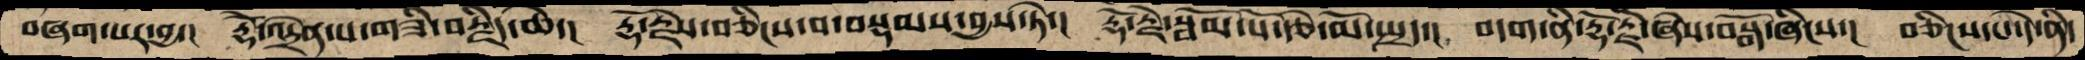བཞག་པར་བྱ་།  རྡོེ་འདྲེན་པ་གཟི་བརྗིད་ཆེ་།  རྡོ་རྗེས་བཅིངས་བ་བསྡམས་བྱས་ཏེ་།  རྡོ་རྗེ་སྦོམ་པོ་རྩེ་མོ་སྤྲད་།  བདག་ནི་རྡོ་རྗེ་ཞེས་བསྒོ་ཞིངས་།  བཅིངས་པ་དེ་ནི་
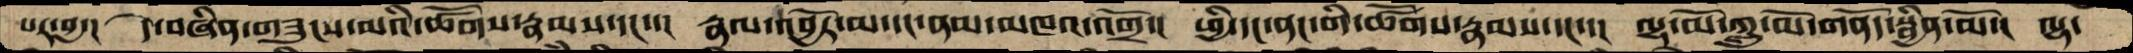པར་བྱ་།  དེ་བཞིན་གཟུངས་མའི་ཚོགས་རྣམས་དང་་།  རྣལ་འབྱོར་མ་དང་ནམ་མཁའ་འགྲོ་།  ཕྱི་དང་ནང་གི་ཚོགས་རྣམས་དང་་།  ལྷ་མོ་ཀླུ་མོ་གནོད་སྦྱིན་མོ་།  ལྷ་
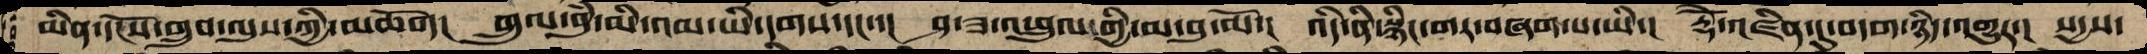ཡིན་དངོས་གྲུབ་ལུས་ཀྱི་མཆོག། གྲུལ་བུཾ་མི་འམ་ཡི་དགས་དང་་། ཤ་ཟ་འཕྲུལ་གྱི་མ་བུ་མོ་། འདི་ནི་སྙིང་གར་བཞག་པ་ཡི་། རྡོེ་འཛིན་དུ་བདག་ཉིད་འགྱུར་། སདྱས་
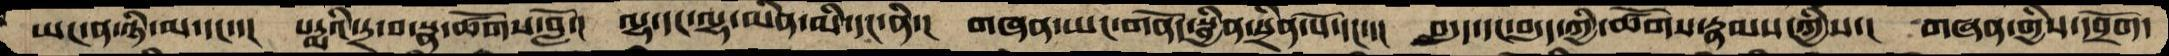ཡང་ན་ཉི་མ་དང་་།  པདྨའི་དྲ་བ་སྣ་ཚོགས་བློ་།  ལྷ་དང་ལྷ་མིན་མི་དང་ནི་།  གཞན་ཡང་གནོད་སྦྱིན་སྲིན་པོ་དང་་།  བདུད་དང་བདུད་ཀྱི་ཚོགས་རྣམས་ཀྱིས་།  གཞན་གྱིས་དབྲོག་
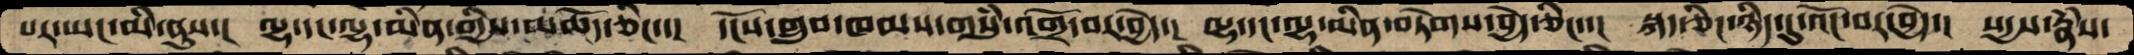པར་ཡང་མི་ནུས་།  ལྷ་དང་ལྷ་མིན་གྱིས་མཆོད་ཅིང་་།  དངོས་གྲུབ་ཁམས་གསུཾ་འགྲོ་བར་བྱེད་།  ལྷ་དང་ལྷ་མིན་བཏེགས་བྱེད་ཅིང་་།  སྐད་ཅིག་ཉིད་དུ་འོང་བར་བྱེད་།  སདྱས་རྣཾས་
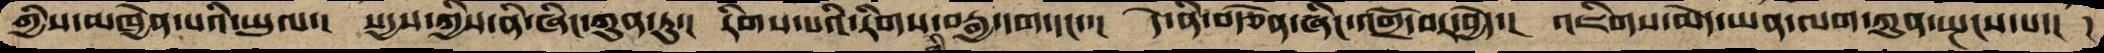གྱིས་མཁྱེན་པའི་ཡུལ་། སདྱས་ཀྱིས་ནི་ཞིང་ཀུན་ཏུ་། རིགས་པའི་རིགས་ཀྱི་བརྒྱ་དག་དང་་། དེ་ནི་བརྩོན་ཞིང་འགྲོ་བར་བྱེད་། འཇིགས་མེད་ཡན་ལག་ཀུན་སྤངས་པ་། ད
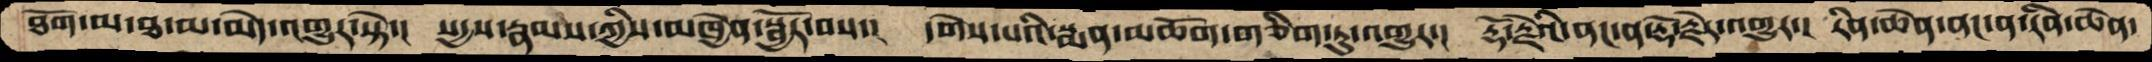ཐོག་མ་ཐ་མ་མེད་འགྱུར་སྟེ་།  སདྱས་རྣམས་ཀྱིས་མཁྱེན་སྦྱོར་བས་།  དགོས་པའི་སྨན་མཆོག་གཅིག་ཏུ་འགྱུར་།  རྡོ་རྗེའི་ནང་ན་རྡོ་རྗེར་འགྱུར་།  རིན་ཆེན་ནང་ན་རིན་ཆེན་
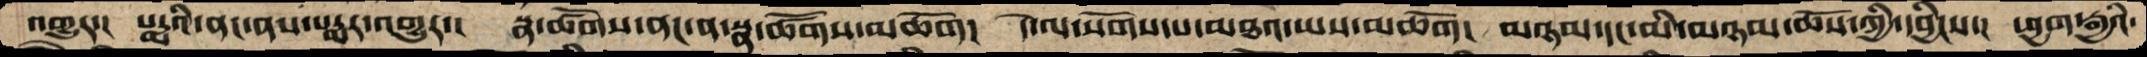འགྱུར་།  པདྨའི་ནང་ནས་པདྨར་འགྱུར་།  སྣ་ཚོགས་ནང་ན་སྣ་ཚོགས་མཆོག།  དེ་ལ་སོགས་པ་མཐའ་ཡས་མཆོག།  མཉམ་དང་མི་མཉམ་ཆོས་ཀྱི་དབྱིངས་།  ཕྱག་རྒྱའི་
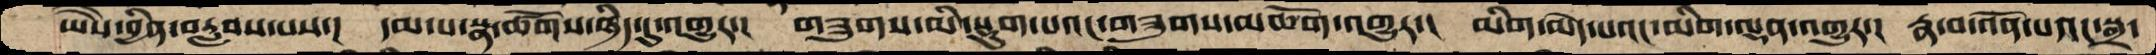ཡཻས་བྱིན་བརླབས་པས་།  དམ་པ་སྣ་ཚོགས་ཉིད་དུ་འགྱུར་།  གཟུགས་མི་སྡུག་པའང་གཟུགས་མཆོག་འགྱུར་།  མིག་མེད་པའང་མིག་ལྡན་འགྱུར་།  རྣ་བ་འོན་པའང་སྒྲ་
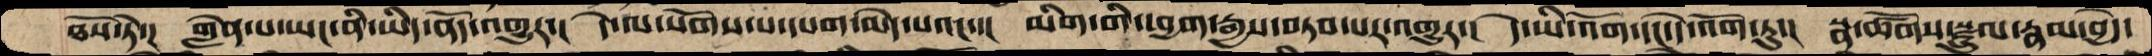ཐོས་ཏེ་།  གླེན་པ་ཡང་ནི་ཡིད་ནོད་འགྱུར་།  དེ་ལ་སོགས་པ་དཔག་མེད་པའང་།  མིག་གི་ཕྱག་རྒྱས་བཏབ་པར་འགྱུར་།  དེ་ཡི་འོག་དང་དེ་འོག་ཏུ་།  སྣ་ཚོགས་སྫྲུལ་རྣམ་བྱེད་
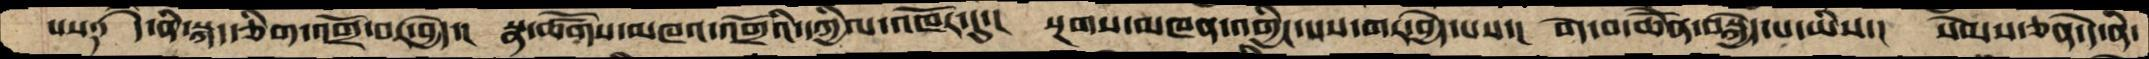པས༑  དེ་ནི་སྐད་ཅིག་འགྲོ་བར་བྱེད་། སྣ་ཚོགས་མཁའ་འགྲོའི་དཀྱིལ་འཁོར་དུ་།  སྔགས་མཁན་འགྱིང་པས་གར་བྱེད་པས་།  བདེ་བ་ཆེནོ་བསྐྱེད་པ་ཡིས་།  སེམས་ཅན་དེ་ནི་
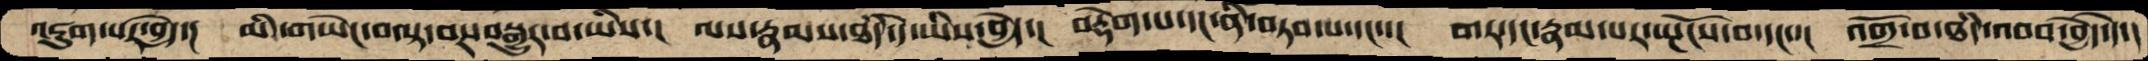འཇུག་པར་བྱེད་། མི་གཡེང་བལྟ་བར་བསྒྱུར་བ་ཡིས་། ལས་རྣམས་ཐདཾ་དེ་ཡིས་བྱེད་། བརྡེག་པ་དང་ནི་བཏབ་པ་དང་་། གར་དང་རྣམ་པར་སྤོངས་བ་དང་་། འགྲོ་བ་ཐདཾ་འབབ་བྱེད་དེ་།
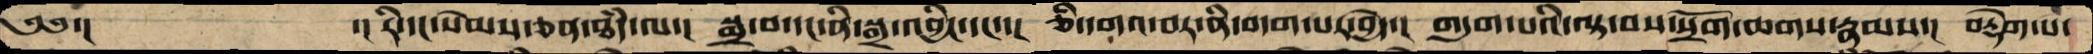༄༅་།        ་།རི་དང་སེམས་ཅན་ཐཾད་ལ་།  སྨྲ་བ་དང་ནི་སྒྲ་འབྱིང་དང་་།  ཅི་དགའ་བར་ནི་བདག་པར་བྱེད་།  གདུག་པའི་ལྟ་བས་སྲོག་ཆགས་རྣམས་།  བརྡེག་པ་
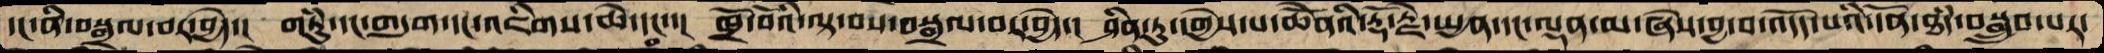དང་ནི་བསྒྲལ་བར་བྱེད་།  གཏུཾ་དང་གདུག་དང་འཇིགས་ཆེ་དང་།  ཁྲོ་བོའི་ལྟ་བས་བསྒྲལ་བར་བྱེད་།  ཤིན་ཏུ་དགྱེད་པ་ཆེནོའི་རྡོ་རྗེ་སྤྱན་དང་ལྡན་མ་ཞེས་བྱ་བ་འདོད་པའི་དོན་ཐདཾ་བསྒྲུབ་པར་
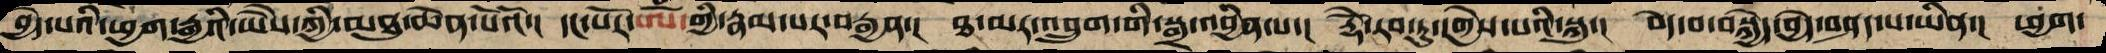བྱེད་པའི་ཕྱག་རྒྱའི་ཡཻས་ཀྱི་མཐུ་ཆེན་པོའོ་།  དང་པོར་ཨོཾ་གྱི་རྣམ་པར་བརྒྱན་།  ཐ་མར་འབྲུག་གི་སྒྲ་འབྱིན་པ་།  རྡོེ་རབ་ཏུ་དགྱེས་པའི་སྐུ་།  བདེ་བ་བསྐྱེད་བྱེད་བཤད་པ་ཡིན་།  ཕྱག་
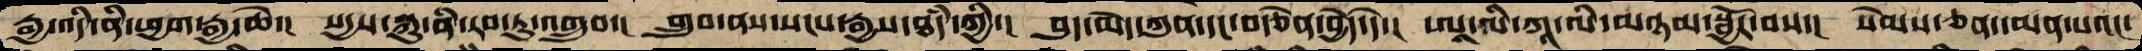རྒྱ་འདི་ནི་ཕྱག་རྒྱ་ཆེ་།  སདྱས་སྐུ་ནི་རབ་ཏུ་འགྲུབ་།  གྲུབ་ནས་སངས་རྒྱས་ཐདཾ་ཀྱི་།  བུད་མེད་ཀུན་དང་བརྩེན་བྱེད་དེ་།  ཨཱ་ལི་ཀཱ་ལི་མཉམ་སྦྱོར་བས་།  སེམས་ཅན་དམན་པའང་
